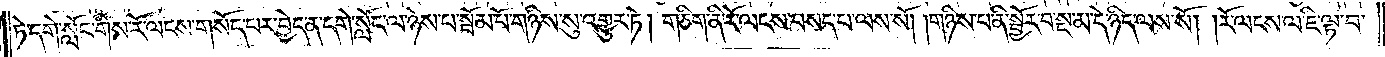ཏེ་དགེ་སློང་གིས་རོ་ལངས་གསོད་པར་བྱེད་ན་དགེ་སློང་ལ་ཉེས་པ་སྦོམ་པོ་གཉིས་སུ་འགྱུར་ཏེ། གཅིག་ནི་རོ་ལངས་བསད་པ་ལས་སོ། །གཉིས་པ་ནི་སྦྱོར་བ་སྔ་མ་དེ་ཉིད་ལས་སོ། །རོ་ལངས་ལ་ཇི་ལྟ་བ་
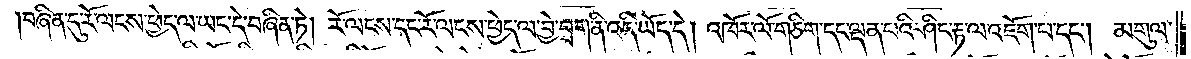བཞིན་དུ་རོ་ལངས་ཕྱེད་ལ་ཡང་དེ་བཞིན་ཏེ། རོ་ལངས་དང་རོ་ལངས་ཕྱེད་ལ་བྱེ་བྲག་ནི་འདི་ཡོད་དེ། འཁོར་ལོ་གཅིག་དང་ལྡན་པའི་ཤིང་རྟ་ལ་འཇོག་པ་དང༌། མགུལ་
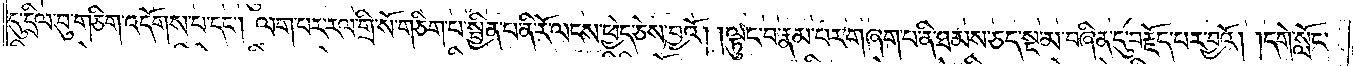དུ་དྲིལ་བུ་གཅིག་འདོགས་པ་དང༌། ལག་པར་རལ་གྲི་སོ་གཅིག་པ་སྦྱིན་པ་ནི་རོ་ལངས་ཕྱེད་ཅེས་བྱའོ། །ལྟུང་བ་རྣམ་པར་གཞག་པ་ནི་ཐམས་ཅད་སྔ་མ་བཞིན་དུ་བརྗོད་པར་བྱའོ། །དགེ་སློང་
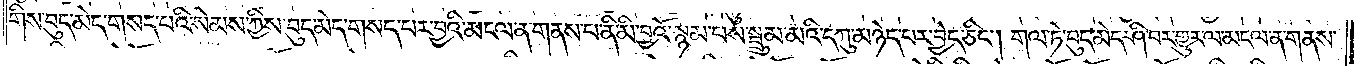གིས་བུད་མེད་གསད་པའི་སེམས་ཀྱིས་བུད་མེད་གསད་པར་བྱའི་མངལ་ན་གནས་པ་ནི་མི་བྱའོ་སྙམ་པས་སྦྲུམ་མའི་དཀུ་མཉེད་པར་བྱེད་ཅིང༌། གལ་ཏེ་བུད་མེད་ཤི་བར་གྱུར་ལ་མངལ་ན་གནས་
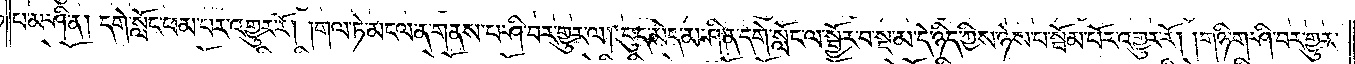པ་མ་ཤི་ན། དགེ་སློང་ཕམ་པར་འགྱུར་རོ། །གལ་ཏེ་མངལ་ན་གནས་པ་ཤི་བར་གྱུར་ལ། བུད་མེད་མ་ཤི་ན་དགེ་སློང་ལ་སྦྱོར་བ་སྔ་མ་དེ་ཉིད་ཀྱིས་ཉེས་པ་སྦོམ་པོར་འགྱུར་རོ། །གཉི་ག་ཤི་བར་གྱུར་
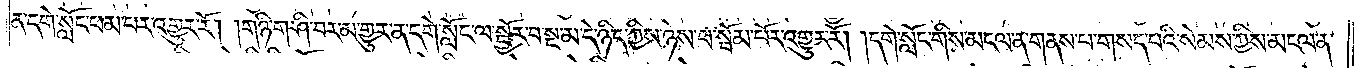ན་དགེ་སློང་ཕམ་པར་འགྱུར་རོ། །གཉི་ག་ཤི་བར་མ་གྱུར་ན་དགེ་སློང་ལ་སྦྱོར་བ་སྔ་མ་དེ་ཉིད་ཀྱིས་ཉེས་པ་སྦོམ་པོར་འགྱུར་རོ། །དགེ་སློང་གིས་མངལ་ན་གནས་པ་གསད་པའི་སེམས་ཀྱིས་མངལ་ན་
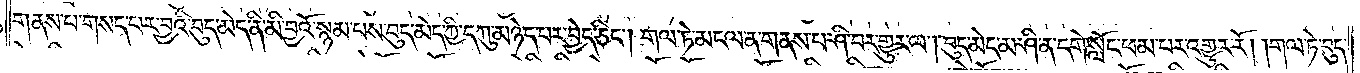གནས་པ་གསད་པར་བྱའི་བུད་མེད་ནི་མི་བྱའོ་སྙམ་པས་བུད་མེད་ཀྱི་དཀུ་མཉེད་པར་བྱེད་ཅིང༌། གལ་ཏེ་མངལ་ན་གནས་པ་ཤི་བར་གྱུར་ལ། བུད་མེད་མ་ཤི་ན་དགེ་སློང་ཕམ་པར་འགྱུར་རོ། །གལ་ཏེ་བུད་
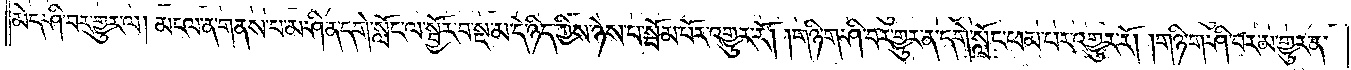མེད་ཤི་བར་གྱུར་ལ། མངལ་ན་གནས་པ་མ་ཤི་ན་དགེ་སློང་ལ་སྦྱོར་བ་སྔ་མ་དེ་ཉིད་ཀྱིས་ཉེས་པ་སྦོམ་པོར་འགྱུར་རོ། །གཉི་ག་ཤི་བར་གྱུར་ན་དགེ་སློང་ཕམ་པར་འགྱུར་རོ། །གཉི་ག་ཤི་བར་མ་གྱུར་ན་
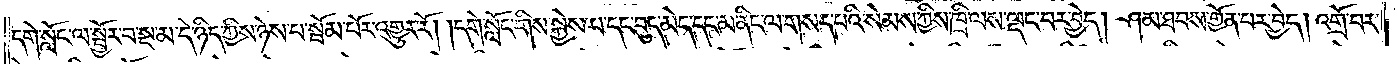དགེ་སློང་ལ་སྦྱོར་བ་སྔ་མ་དེ་ཉིད་ཀྱིས་ཉེས་པ་སྦོམ་པོར་འགྱུར་རོ། །དགེ་སློང་གིས་སྐྱེས་པ་དང་བུད་མེད་དང་མ་ནིང་ལ་གསད་པའི་སེམས་ཀྱིས་ཁྲི་ལས་ལྡང་བར་བྱེད། ཤམ་ཐབས་གྱོན་པར་བྱེད། འགྲོ་བར་
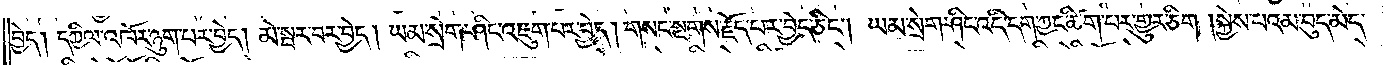བྱེད། དཀྱིལ་འཁོར་ཉུག་པར་བྱེད། མེ་སྦར་བར་བྱེད། ཡམ་སྲེག་ཤིང་འཇུག་པར་བྱེད། གསང་སྔགས་རྗོད་པར་བྱེད་ཅིང༌། ཡམ་སྲེག་ཤིང་འདི་དག་ཀྱང་ཚིག་པར་གྱུར་ཅིག །སྐྱེས་པའམ་བུད་མེད་
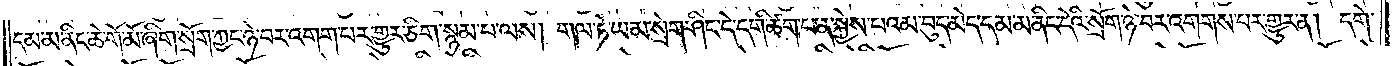དམ་མ་ནིང་ཆེ་གོ་མོ་ཞིག་སྲོག་ཀྱང་ཉེ་བར་འགག་པར་གྱུར་ཅིག་སྙམ་པ་ལས། གལ་ཏེ་ཡམ་སྲེག་ཤིང་དེ་དག་ཚིག་པ་ན་སྐྱེས་པའམ་བུད་མེད་དམ་མ་ནིང་དེའི་སྲོག་ཉེ་བར་འགགས་པར་གྱུར་ན། དགེ་
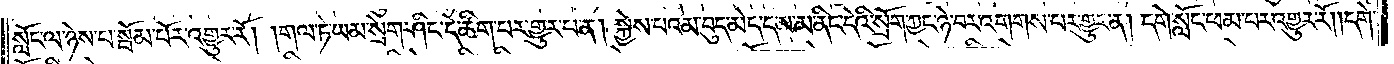སློང་ལ་ཉེས་པ་སྦོམ་པོར་འགྱུར་རོ། །གལ་ཏེ་ཡམ་སྲེག་ཤིང་དེ་ཚིག་པར་གྱུར་པ་ན། སྐྱེས་པའམ་བུད་མེད་དམ་མ་ནིང་དེའི་སྲོག་ཀྱང་ཉེ་བར་འགགས་པར་གྱུར་ན། དགེ་སློང་ཕམ་པར་འགྱུར་རོ། །དགེ་
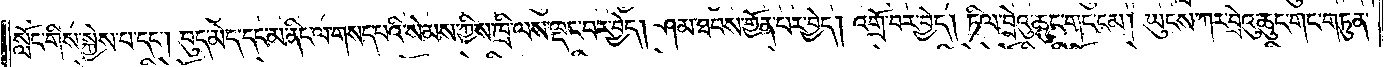སློང་གིས་སྐྱེས་པ་དང༌། བུད་མེད་དང་མ་ནིང་ལ་གསད་པའི་སེམས་ཀྱིས་ཁྲི་ལས་ལྡང་བར་བྱེད། ཤམ་ཐབས་གྱོན་པར་བྱེད། འགྲོ་བར་བྱེད། ཏིལ་བྲེའུ་ཆུང་གང་ངམ། ཡུངས་ཀར་བྲེའུ་ཆུང་གང་གཏུན་
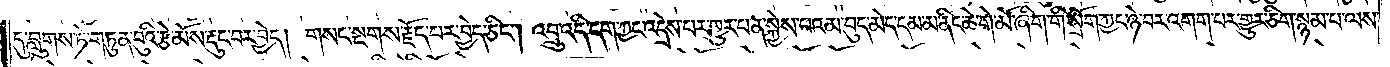དུ་བླུགས་ཏེ་གཏུན་བུའི་རྩེ་མོས་རྡུང་བར་བྱེད། གསང་སྔགས་རྗོད་པར་བྱེད་ཅིང༌། འབྲུ་འདི་དག་ཀྱང་འདྲེས་པར་གྱུར་པ་ན་སྐྱེས་པའམ་བུད་མེད་དམ་མ་ནིང་ཆེ་གེ་མོ་ཞིག་གི་སྲོག་ཀྱང་ཉེ་བར་འགག་པར་གྱུར་ཅིག་སྙམ་པ་ལས་
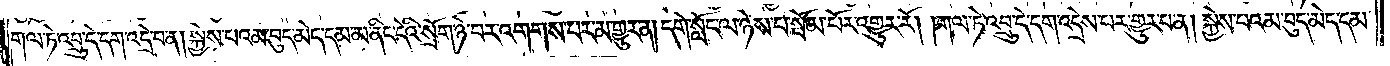གལ་ཏེ་འབྲུ་དེ་དག་འདྲེ་བ་ན། སྐྱེས་པའམ་བུད་མེད་དམ་མ་ནིང་དེའི་སྲོག་ཉེ་བར་འགགས་པར་མ་གྱུར་ན། དགེ་སློང་ལ་ཉེས་པ་སྦོམ་པོར་འགྱུར་རོ། །གལ་ཏེ་འབྲུ་དེ་དག་འདྲེས་པར་གྱུར་པ་ན། སྐྱེས་པའམ་བུད་མེད་དམ་
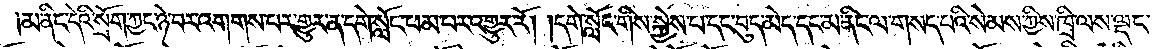མ་ནིང་དེའི་སྲོག་ཀྱང་ཉེ་བར་འགགས་པར་གྱུར་ན་དགེ་སློང་ཕམ་པར་འགྱུར་རོ། །དགེ་སློང་གིས་སྐྱེས་པ་དང་བུད་མེད་དང་མ་ནིང་ལ་གསད་པའི་སེམས་ཀྱིས་ཁྲི་ལས་ལྡང་
